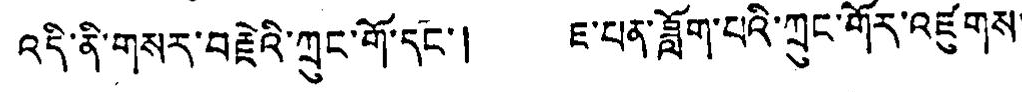འདི་ནི་གསར་བརྗེའི་ཀྲུང་གོ་དང་། ཇ་པན་ཟློག་པའི་ཀྲུང་གོར་འཛུགས་
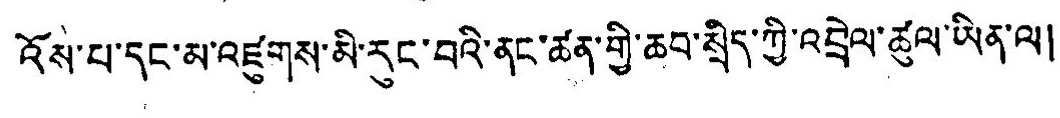འོས་པ་དང་མ་འཛུགས་མི་རུང་བའི་ནང་ཚན་གྱི་ཆབ་སྲིད་ཀྱི་འབྲེལ་ཚུལ་ཡིན་ལ།
